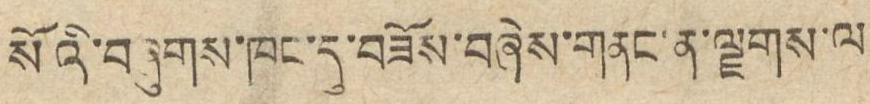སོའི་བཞུགས་ཁང་དུ་བཟོས་བཞེས་གནང་ན་ལྗགས་ལ
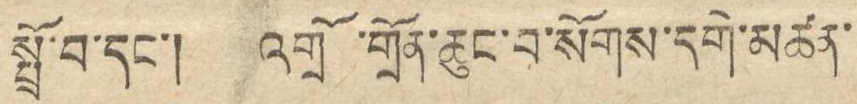སྤྲོ་བ་དང་། འགྲོ་གྲོན་ཆུང་བ་སོགས་དགེ་མཚན་
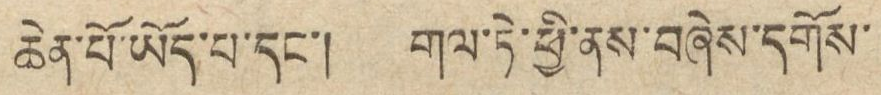ཆེན་པོ་ཡོད་པ་དང་། གལ་ཏེ་ཕྱི་ནས་བཞེས་དགོས་
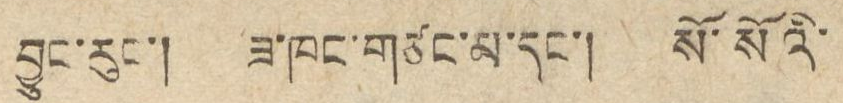བྱུང་རུང་། ཟ་ཁང་གཙང་མ་དང་། སོ་སོའི་
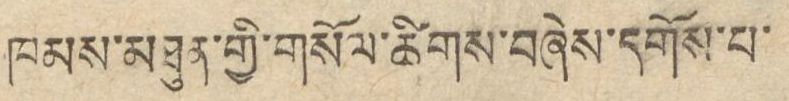ཁམས་མཐུན་གྱི་གསོལ་ཚིགས་བཞེས་དགོས་པ་
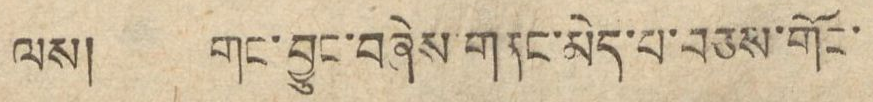ལས། གང་བྱུང་བཞེས་གནང་མེད་པ་བཅས་གོང་
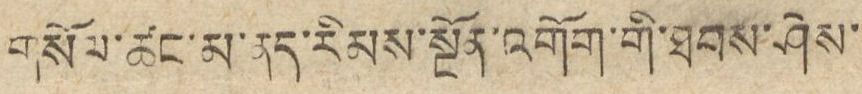གསོལ་ཚང་མ་ནད་རིམས་སྔོན་འགོག་གི་ཐབས་ཤེས་
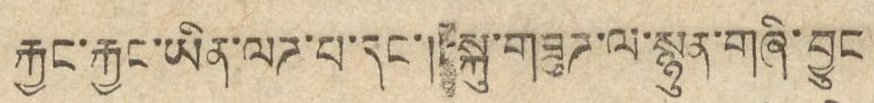རྐྱང་རྐྱང་ཡིན་ལཌ་པ་དང་། སྐུ་གཟུཌ་ལ་སྙུན་གཞི་བྱུང
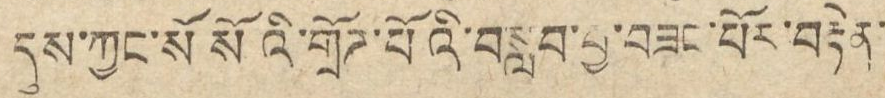དུས་ཀྱང་སོ སོའི་གྲོཌ་པོའི་བསླབ་བྱ་བཟང་པོར་བརྟེན་
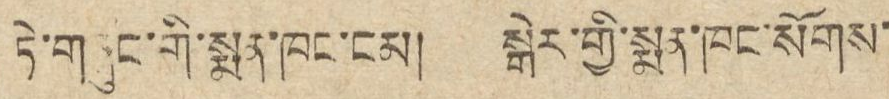ཏེ་གཞུང་གི་སྨན་ཁང་ངམ། སྒེར་གྱི་སྨན་ཁང་སོགས་
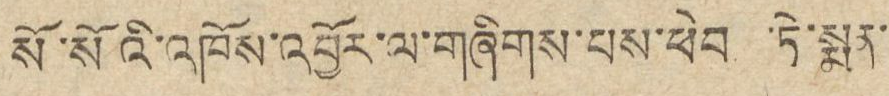སོ་སོའི་འཁོས་འབྱོར་ལ་གཞིགས་པས་ཕེབས་ཏེ་སྨན་
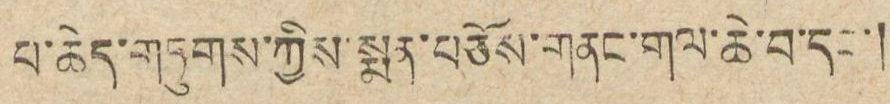པ་ཆེད་གཏུགས་ཀྱིས་སྨན་བཅོས་གནང་གལ་ཆེ་བ་དང་།
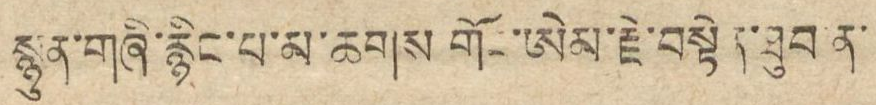སྙུན་གཞི་རྙིང་པ་མ་ཆགས གོང་ཨེམ་རྗེ་བསྟེན་ཐུབ་ན་
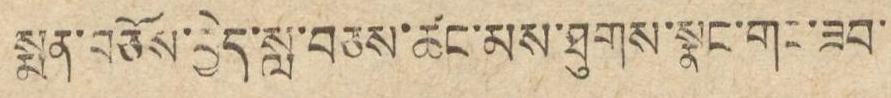སྨན་བཅོས་བྱེད་སླ་བཅས་ཚང་མས་ཐུགས་སྣང་གང་ཟབ་
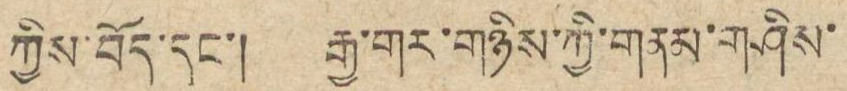ཀྱིས་བོད་དང་། རྒྱ་གར་གཉིས་ཀྱི་གནམ་གཤིས་
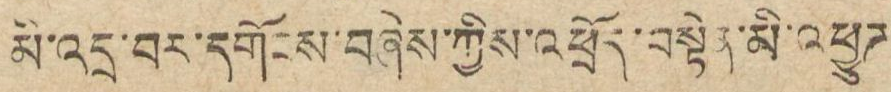མི་འདྲ་བར་དགོངས་བཞེས་ཀྱིས་འཕྲོད་བསྟེན་མི་འཕྱུཌ་
